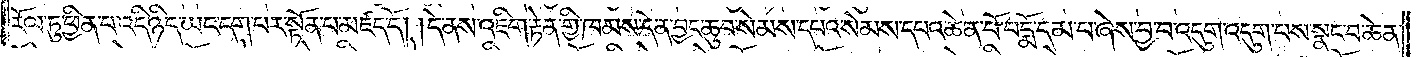རོལ་ཏུ་ཕྱིན་པ་འདི་ཉིད་ཡང་དག་པར་སྟོན་པ་མཛད་དོ། །དེ་ནས་འཇིག་རྟེན་གྱི་ཁམས་དེ་ན་བྱང་ཆུབ་སེམས་དཔའ་སེམས་དཔའ་ཆེན་པོ་པདྨོ་དམ་པ་ཞེས་བྱ་བ་འདུག་འདུག་པས་སྣང་བ་ཆེན་
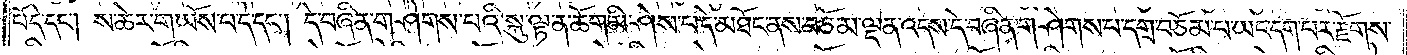པོ་དེ་དང༌། ས་ཆེར་གཡོས་པ་དེ་དང༌། དེ་བཞིན་གཤེགས་པའི་སྐུ་ལྟ་ན་ཆོག་མི་ཤེས་པ་དེ་མཐོང་ནས་བཅོམ་ལྡན་འདས་དེ་བཞིན་གཤེགས་པ་དགྲ་བཅོམ་པ་ཡང་དག་པར་རྫོགས་
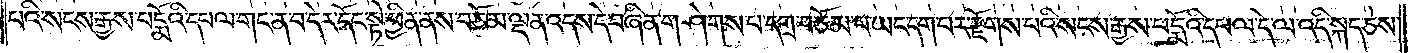པའི་སངས་རྒྱས་པདྨོའི་དཔལ་གང་ན་བ་དེར་དོང་སྟེ་ཕྱིན་ནས་བཅོམ་ལྡན་འདས་དེ་བཞིན་གཤེགས་པ་དགྲ་བཅོམ་པ་ཡང་དག་པར་རྫོགས་པའི་སངས་རྒྱས་པདྨོའི་དཔལ་དེ་ལ་འདི་སྐད་ཅེས་
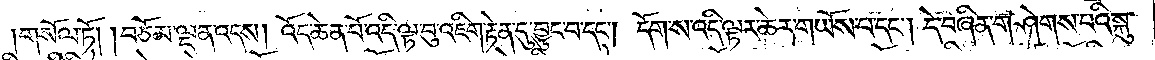གསོལ་ཏོ། །བཅོམ་ལྡན་འདས། འོད་ཆེན་པོ་འདི་ལྟ་བུ་འཇིག་རྟེན་དུ་བྱུང་བ་དང༌། དོག་ས་འདི་ལྟར་ཆེར་གཡོས་པ་དང༌། དེ་བཞིན་གཤེགས་པའི་སྐུ་
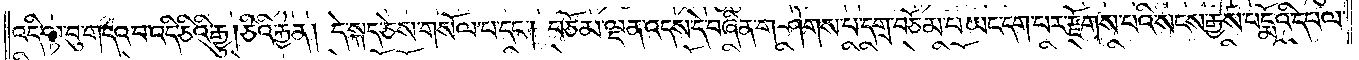འདི་ལྟ་བུ་གདའ་བ་འདི་ཅིའི་རྒྱུ་།ཅིའི་རྐྱེན། དེ་སྐད་ཅེས་གསོལ་པ་དང༌། བཅོམ་ལྡན་འདས་དེ་བཞིན་གཤེགས་པ་དགྲ་བཅོམ་པ་ཡང་དག་པར་རྫོགས་པའི་སངས་རྒྱས་པདྨོའི་དཔལ་
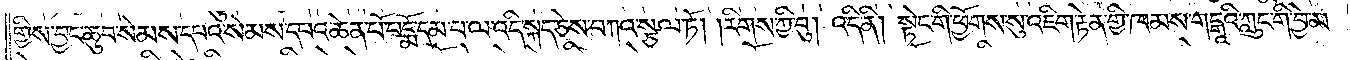གྱིས་བྱང་ཆུབ་སེམས་དཔའ་སེམས་དཔའ་ཆེན་པོ་པདྨོ་དམ་པ་ལ་འདི་སྐད་ཅེས་བཀའ་སྩལ་ཏོ། །རིགས་ཀྱི་བུ། འདི་ནི། སྟེང་གི་ཕྱོགས་སུ་འཇིག་རྟེན་གྱི་ཁམས་གངྒཱའི་ཀླུང་གི་བྱེ་མ་
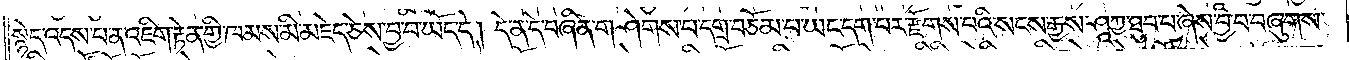སྙེད་འདས་པ་ན་འཇིག་རྟེན་གྱི་ཁམས་མི་མཇེད་ཅེས་བྱ་བ་ཡོད་དེ། དེ་ན་དེ་བཞིན་གཤེགས་པ་དགྲ་བཅོམ་པ་ཡང་དག་པར་རྫོགས་པའི་སངས་རྒྱས་ཤཱཀྱ་ཐུབ་པ་ཞེས་བྱ་བ་བཞུགས་
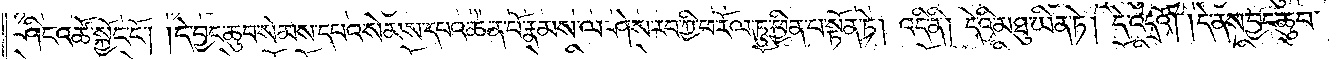ཤིང་འཚོ་སྐྱོང་ངོ༌། །དེ་བྱང་ཆུབ་སེམས་དཔའ་སེམས་དཔའ་ཆེན་པོ་རྣམས་ལ་ཤེས་རབ་ཀྱི་ཕ་རོལ་ཏུ་ཕྱིན་པ་སྟོན་ཏེ། འདི་ནི། དེའི་མཐུ་ཡིན་ཏེ། དེ་འདྲའོ། །དེ་ནས་བྱང་ཆུབ་
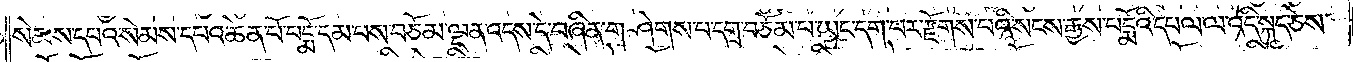སེམས་དཔའ་སེམས་དཔའ་ཆེན་པོ་པདྨོ་དམ་པས་བཅོམ་ལྡན་འདས་དེ་བཞིན་གཤེགས་པ་དགྲ་བཅོམ་པ་ཡང་དག་པར་རྫོགས་པའི་སངས་རྒྱས་པདྨོའི་དཔལ་ལ་འདི་སྐད་ཅེས་
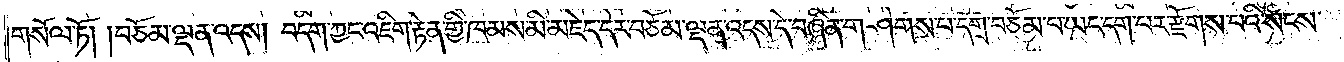གསོལ་ཏོ། །བཅོམ་ལྡན་འདས། བདག་ཀྱང་འཇིག་རྟེན་གྱི་ཁམས་མི་མཇེད་དེར་བཅོམ་ལྡན་འདས་དེ་བཞིན་གཤེགས་པ་དགྲ་བཅོམ་པ་ཡང་དག་པར་རྫོགས་པའི་སངས་
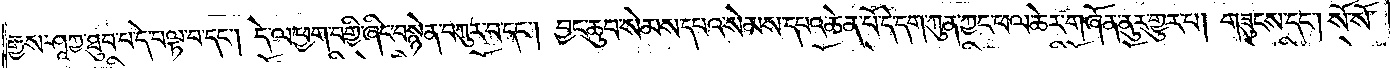རྒྱས་ཤཱཀྱ་ཐུབ་པ་དེ་བལྟ་བ་དང༌། དེ་ལ་ཕྱག་བགྱི་ཞིང་བསྙེན་བཀུར་བ་དང༌། བྱང་ཆུབ་སེམས་དཔའ་སེམས་དཔའ་ཆེན་པོ་དེ་དག་ཀུན་ཀྱང་ཕལ་ཆེར་གཞོན་ནུར་གྱུར་པ། གཟུངས་དང༌། སོ་སོ་
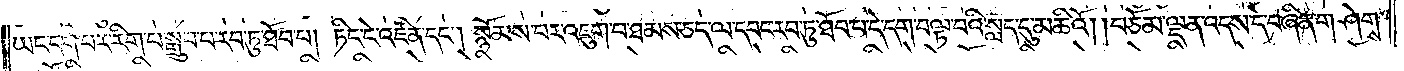ཡང་དག་པར་རིག་པ་སྒྲུབ་པ་རབ་ཏུ་ཐོབ་པ། ཏིང་ངེ་འཛིན་དང༌། སྙོམས་པར་འཇུག་པ་ཐམས་ཅད་ལ་དབང་རབ་ཏུ་ཐོབ་པ་དེ་དག་བལྟ་བའི་སླད་དུ་མཆིའོ། །བཅོམ་ལྡན་འདས་དེ་བཞིན་གཤེགས་
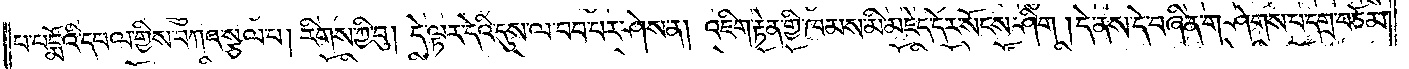པ་པདྨོའི་དཔལ་གྱིས་བཀའ་སྩལ་པ། རིགས་ཀྱི་བུ། དེ་ལྟར་དེའི་དུས་ལ་བབ་པར་ཤེས་ན། འཇིག་རྟེན་གྱི་ཁམས་མི་མཇེད་དེར་སོངས་ཤིག །དེ་ནས་དེ་བཞིན་གཤེགས་པ་དགྲ་བཅོམ་
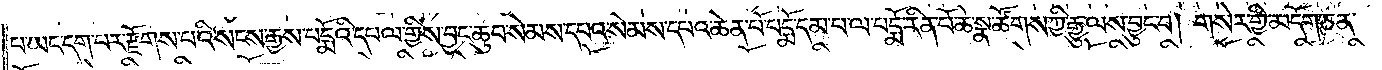པ་ཡང་དག་པར་རྫོགས་པའི་སངས་རྒྱས་པདྨོའི་དཔལ་གྱིས་བྱང་ཆུབ་སེམས་དཔའ་སེམས་དཔའ་ཆེན་པོ་པདྨོ་དམ་པ་ལ་པདྨོ་རིན་པོ་ཆེ་སྣ་ཚོགས་ཀྱི་རྒྱུ་ལས་བྱུང་བ། གསེར་གྱི་མདོག་ཅན་
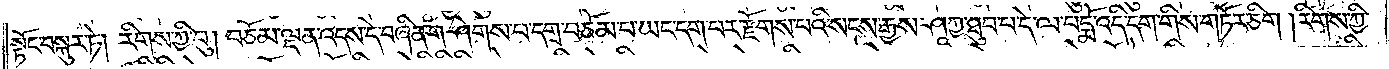སྟོང་བསྐུར་ཏེ། རིགས་ཀྱི་བུ། བཅོམ་ལྡན་འདས་དེ་བཞིན་གཤེགས་པ་དགྲ་བཅོམ་པ་ཡང་དག་པར་རྫོགས་པའི་སངས་རྒྱས་ཤཱཀྱ་ཐུབ་པ་དེ་ལ་པདྨོ་འདི་དག་གིས་གཏོར་ཅིག །རིགས་ཀྱི་
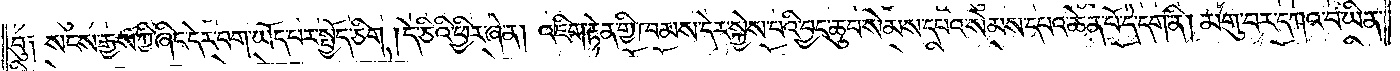བུ༑ སངས་རྒྱས་ཀྱི་ཞིང་དེར་བག་ཡོད་པར་སྤྱོད་ཅིག །དེ་ཅིའི་ཕྱིར་ཞེ་ན། འཇིག་རྟེན་གྱི་ཁམས་དེར་སྐྱེས་པའི་བྱང་ཆུབ་སེམས་དཔའ་སེམས་དཔའ་ཆེན་པོ་དེ་དག་ནི། མགུ་བར་དཀའ་བ་ཡིན་
